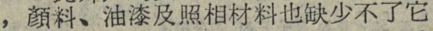，顏料、油漆及照相材料也缺少不了它
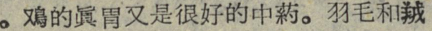。鳮的眞胃又是很好的中葯。羽毛和羢
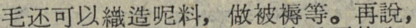毛还可以織造呢料，做被褥等。再說，
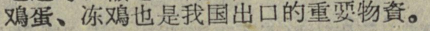鳮蛋、冻鳮也是我国出口的重要物資。
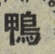鴨
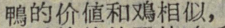鴨的价值和鳮相似，
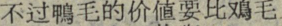不过鴨毛的价值要比鳮毛
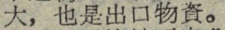大，也是出口物資。
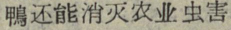鴨还能消灭农业虫害
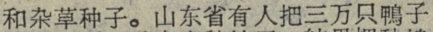和杂草种子。山东省有人把三万只鴨子
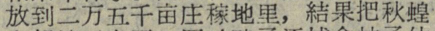放到二万五千由庄稼地里，結果把秋蝗
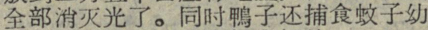全部消灭光了。同时鴨子还捕食蚊子幼
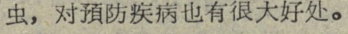虫，对預防疾病也有很大好处。
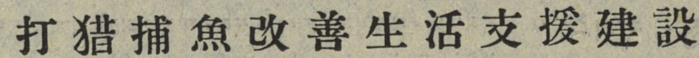打猎捕魚改善生活支援建設
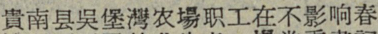貴南县吳堡灣农場职工在不影响春
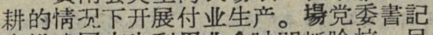耕的情況下开展付业生产。場党委書記
